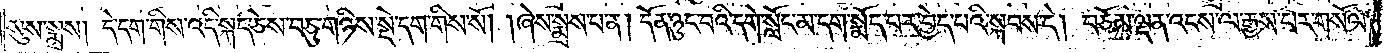སུས་སྨྲས། དེ་དག་གིས་འདི་སྐད་ཅེས་བཅུ་གཉིས་སྡེ་དག་གིས་སོ། །ཞེས་སྨྲས་པ་ན། དོན་ཉུང་བའི་དགེ་སློང་མ་དག་སྨོད་པར་བྱེད་པའི་སྐབས་དེ། བཅོམ་ལྡན་འདས་ལ་རྒྱས་པར་གསོལ་
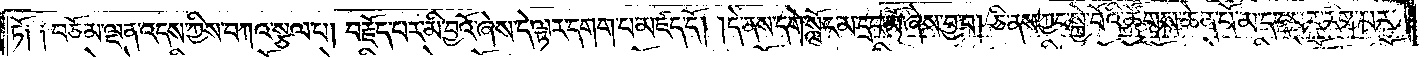ཏོ༑ ༑བཅོམ་ལྡན་འདས་ཀྱིས་བཀའ་སྩལ་པ། བརྗོད་པར་མི་བྱའོ་ཞེས་དེ་ལྟར་དགག་པ་མཛད་དོ། །དེ་ནས་དགེ་སློང་མ་དྲང་མོ་ཞེས་བྱ་བ། ཅི་ནས་ཀྱང་སྐྱེ་བོའི་ཚོགས་ཆེན་པོ་མ་དད་པར་རིག་པར་
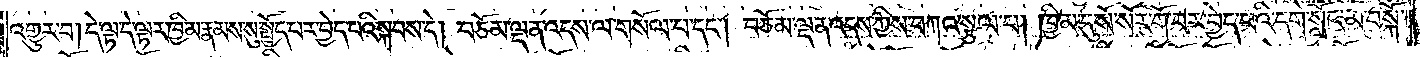འགྱུར་པ། དེ་ལྟ་དེ་ལྟར་ཁྱིམ་རྣམས་སུ་སྤྱོད་པར་བྱེད་པའི་སྐབས་དེ། བཅོམ་ལྡན་འདས་ལ་གསོལ་པ་དང༌། བཅོམ་ལྡན་འདས་ཀྱིས་བཀའ་སྩལ་པ། ཁྱིམ་དུ་སོ་སོར་གོ་བར་བྱེད་པའི་དགེ་སློང་མ་བསྐོ་
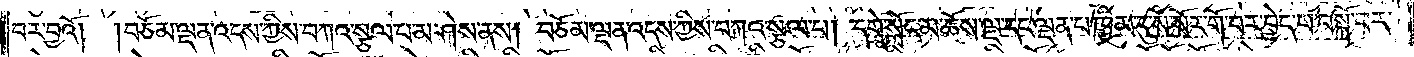བར་བྱའོ། །བཅོམ་ལྡན་འདས་ཀྱིས་བཀའ་སྩལ་པ་མ་ཤེས་ནས། བཅོམ་ལྡན་འདས་ཀྱིས་བཀའ་སྩལ་པ། དགེ་སློང་མ་ཆོས་ལྔ་དང་ལྡན་པ་ཁྱིམ་དུ་སོ་སོར་གོ་བར་བྱེད་པ་བསྐོ་བར་
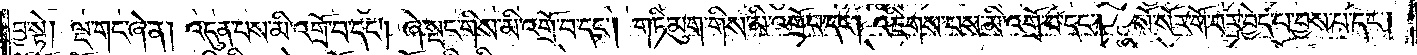བྱ་སྟེ། ལྔ་གང་ཞེ་ན། འདུན་པས་མི་འགྲོ་བ་དང༌། ཞེ་སྡང་གིས་མི་འགྲོ་བ་དང༌། གཏི་མུག་གིས་མི་འགྲོ་བ་དང༌། འཇིགས་པས་མི་འགྲོ་བ་དང༌། སོ་སོར་གོ་བར་བྱེད་པ་བྱས་པ་དང༌།
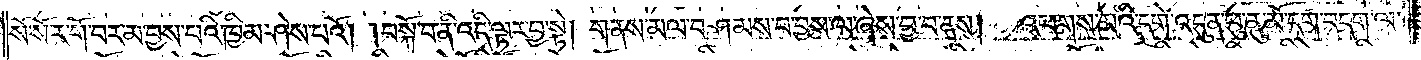སོ་སོར་གོ་བར་མ་བྱས་པའི་ཁྱིམ་ཤེས་པའོ། །བསྐོ་བ་ནི་འདི་ལྟར་བྱ་སྟེ། གནས་མལ་བཤམས་པ་བྱས་ལ་ཞེས་བྱ་བ་ནས། འཕགས་མའི་དགེ་འདུན་ཕུ་ནུ་མོ་དག་བདག་ལ་
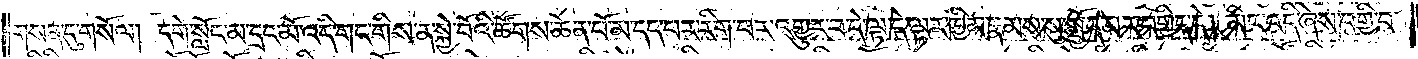གསན་དུ་གསོལ། དགེ་སློང་མ་དྲང་མོ་འདི་གང་གིས་ན་སྐྱེ་བོའི་ཚོགས་ཆེན་པོ་མ་དད་པར་རིག་པར་འགྱུར་བ་དེ་ལྟ་དེ་ལྟར་ཁྱིམ་རྣམས་སུ་སྤྱོད་པར་བགྱིད་དེ། མིང་འདི་ཞེས་བགྱི་བ་
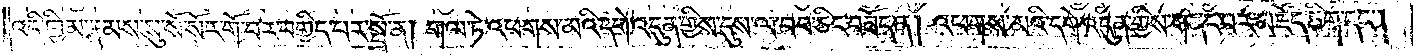འདི་ཁྱིམ་རྣམས་སུ་སོ་སོར་གོ་བར་བགྱིད་པར་སྤྲོ་ན། གལ་ཏེ་འཕགས་མའི་དགེ་འདུན་གྱིས་དུས་ལ་བབ་ཅིང་བཟོད་ན། འཕགས་མའི་དགེ་འདུན་གྱིས་གནང་བར་མཛོད་ཅིག་དང༌།
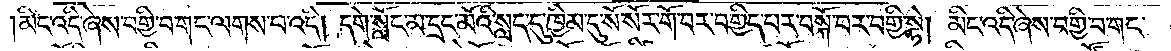མིང་འདི་ཞེས་བགྱི་བ་གང་ལགས་པ་འདི། དགེ་སློང་མ་དྲང་མོའི་སླད་དུ་ཁྱིམ་དུ་སོ་སོར་གོ་བར་བགྱིད་པར་བསྐོ་བར་བགྱི་སྟེ། མིང་འདི་ཞེས་བགྱི་བ་གང་
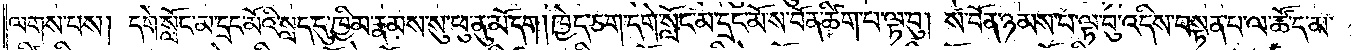ལགས་པས། དགེ་སློང་མ་དྲང་མོའི་སླད་དུ་ཁྱིམ་རྣམས་སུ་ཕུ་ནུ་མོ་དག །ཁྱེད་ཅག་དགེ་སློང་མ་དྲང་མོ་ས་བོན་ཚིག་པ་ལྟ་བུ། ས་བོན་ཉམས་པ་ལྟ་བུ་འདིས་བསྟན་པ་ལ་ཚོད་མ་
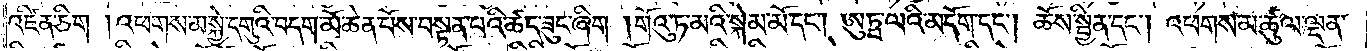འཛིན་ཅིག །འཕགས་མ་སྐྱེ་དགུའི་བདག་མོ་ཆེན་པོས་བསྟན་པའི་ཚད་ཟུང་ཞིག །གོའུ་ཏ་མའི་སྐེམ་མོ་དང༌། ཨུཏྤ་ལའི་མདོག་དང༌། ཆོས་སྦྱིན་དང༌། འཕགས་མ་ཚུལ་ལྡན་
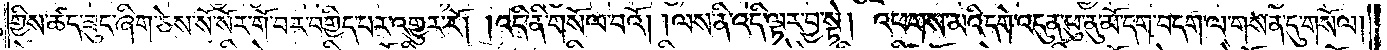གྱིས་ཆེད་ཟུང་ཞིག་ཅེས་སོ་སོར་གོ་བར་བགྱིད་པར་འགྱུར་རོ། །འདི་ནི་གསོལ་བའོ། །ལས་ནི་འདི་ལྟར་བྱ་སྟེ། འཕགས་མའི་དགེ་འདུན་ཕུ་ནུ་མོ་དག་བདག་ལ་གསན་དུ་གསོལ།
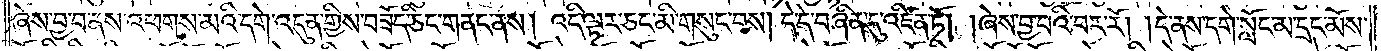ཞེས་བྱ་བ་ནས་འཕགས་མའི་དགེ་འདུན་གྱིས་བཟོད་ཅིང་གནང་ནས། འདི་ལྟར་ཅང་མི་གསུང་བས། དེ་དེ་བཞིན་དུ་འཛིན་ཏོ། །ཞེས་བྱ་བའི་བར་རོ། །དེ་ནས་དགེ་སློང་མ་དྲང་མོས་
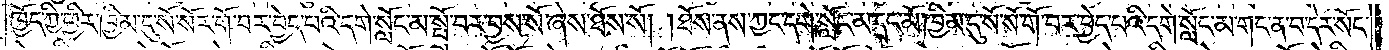ཁྱོད་ཀྱི་ཕྱིར་ཁྱིམ་དུ་སོ་སོར་གོ་བར་བྱེད་པའི་དགེ་སློང་མ་སྤྲོ་བར་བྱས་སོ་ཞེས་ཐོས་སོ། །ཐོས་ནས་ཀྱང་དགེ་སློང་མ་དྲང་མོ་ཁྱིམ་དུ་སོ་སོ་གོ་བར་བྱེད་པའི་དགེ་སློང་མ་གང་ན་བ་དེར་སོང་
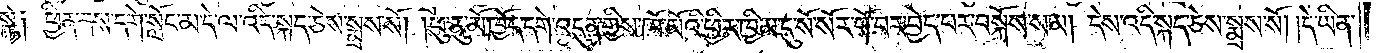སྟེ༑ ཕྱིན་ནས་དགེ་སློང་མ་དེ་ལ་འདི་སྐད་ཅེས་སྨྲས་སོ། །ཕུ་ནུ་མོ་ཁྱོད་དགེ་འདུན་གྱིས་ཁོ་མོའི་ཕྱིར་ཁྱིམ་དུ་སོ་སོར་གོ་བར་བྱེད་པར་བསྐོས་སམ། དེས་འདི་སྐད་ཅེས་སྨྲས་སོ། །དེ་ཡིན་
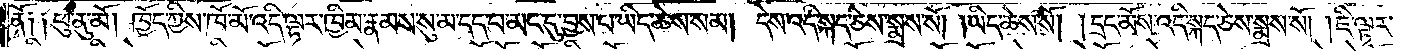ནོ༑ ༑ཕུ་ནུ་མོ། ཁྱོད་ཀྱིས་ཁོ་མོ་འདི་ལྟར་ཁྱིམ་རྣམས་སུ་མ་དད་པ་མང་དུ་བྱས་པ་ཡིད་ཆེས་སམ། དེས་འདི་སྐད་ཅེས་སྨྲས་སོ། །ཡིད་ཆེས་སོ། །དྲང་མོས་འདི་སྐད་ཅེས་སྨྲས་སོ། །ཇི་ལྟར་
